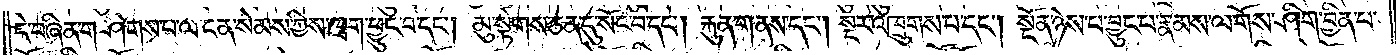དེ་བཞིན་གཤེགས་པ་ལ་ངན་སེམས་ཀྱིས་ཁྲག་ཕྱུང་བ་དང༌། མུ་སྟེགས་ཅན་དུ་སོང་བ་དང༌། རྐུན་གནས་དང༌། སྔར་འཁྲུགས་པ་དང༌། སྔོན་ཉེས་པ་བྱུང་བ་རྣམས་ལ་གོས་ཤིག་བྱིན་པ་
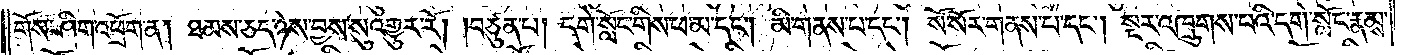གོས་ཤིག་འཕྲོག་ན། ཐམས་ཅད་ཉེས་བྱས་སུ་འགྱུར་རོ། །བཙུན་པ། དགེ་སློང་གིས་ཕ་མ་དང༌། མི་གནས་པ་དང༌། སོ་སོར་གནས་པ་དང༌། སྔར་འཁྲུགས་པའི་དགེ་སློང་རྣམས་
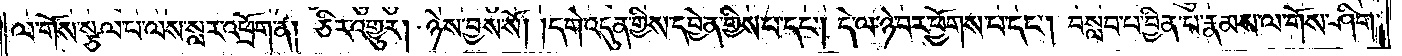ལ་གོས་སྩལ་པ་ལས་སླར་འཕྲོག་ན། ཅིར་འགྱུར། ཉེས་བྱས་སོ། །དགེ་འདུན་གྱིས་དབྱེན་གྱིས་པ་དང༌། དེ་ལ་ཉེ་བར་ཕྱོགས་པ་དང༌། བསླབ་པ་བྱིན་པ་རྣམས་ལ་གོས་ཤིག་
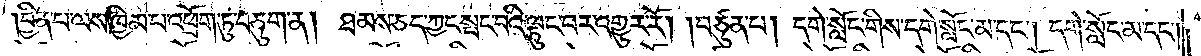བྱིན་པ་ལས་ཁྱིམ་པ་འཕྲོག་ཏུ་བཅུག་ན། ཐམས་ཅད་ཀྱང་སྤང་བའི་ལྟུང་བར་འགྱུར་རོ། །བཙུན་པ། དགེ་སློང་གིས་དགེ་སློང་མ་དང༌། དགེ་སློང་མ་དང༌།
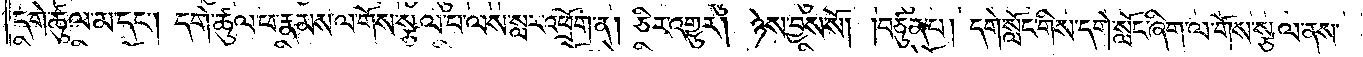དགེ་ཚུལ་མ་དང༌། དགེ་ཚུལ་ཕ་རྣམས་ལ་གོས་སྩལ་པ་ལས་སླར་འཕྲོག་ན། ཅིར་འགྱུར། ཉེས་བྱས་སོ། །བཙུན་པ། དགེ་སློང་གིས་དགེ་སློང་ཞིག་ལ་གོས་སྩལ་ནས་
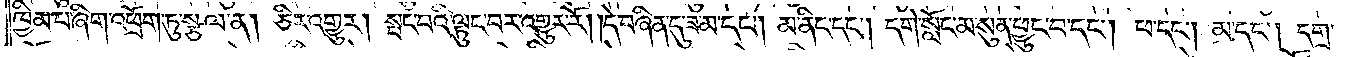ཁྱིམ་པ་ཞིག་འཕྲོག་ཏུ་སྩལ་ན། ཅིར་འགྱུར། སྤང་བའི་ལྟུང་བར་འགྱུར་རོ། །དེ་བཞིན་དུ་ཟ་མ་དང༌། མ་ནིང་དང༌། དགེ་སློང་མ་སུན་ཕྱུང་བ་དང༌། ཕ་དང༌། མ་དང༌། དགྲ་
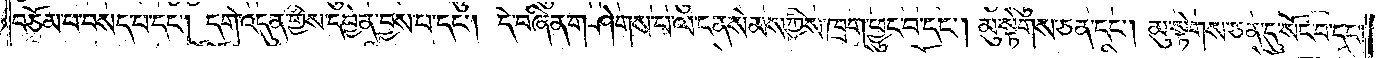བཅོམ་པ་བསད་པ་དང༌། དགེ་འདུན་གྱིས་དབྱེན་བྱས་པ་དང༌། དེ་བཞིན་གཤེགས་པ་ལ་ངན་སེམས་ཀྱིས་ཁྲག་ཕྱུང་བ་དང༌། མུ་སྟེགས་ཅན་དང༌། མུ་སྟེགས་ཅན་དུ་སོང་བ་དང༌།
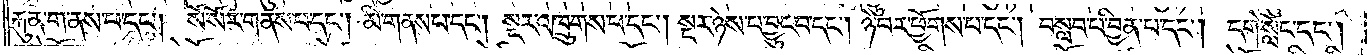རྐུན་གནས་པ་དང༌། སོ་སོར་གནས་པ་དང༌། མི་གནས་པ་དང༌། སྔར་འཁྲུགས་པ་དང༌། སྔར་ཉེས་པ་བྱུང་བ་དང༌། ཉེ་བར་ཕྱོགས་པ་དང༌། བསླབ་པ་བྱིན་པ་དང༌། དགེ་སློང་དང༌།
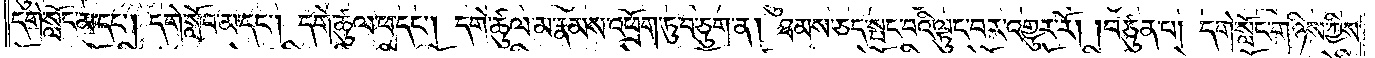དགེ་སློང་མ་དང༌། དགེ་སློབ་མ་དང༌། དགེ་ཚུལ་ཕ་དང༌། དགེ་ཚུལ་མ་རྣམས་འཕྲོག་ཏུ་བཅུག་ན། ཐམས་ཅད་སྤང་བའི་ལྟུང་བར་འགྱུར་རོ། །བཙུན་པ། དགེ་སློང་གཉིས་ཀྱིས་
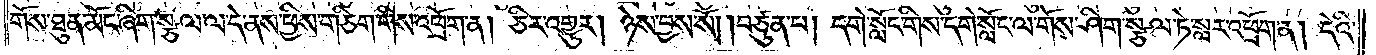གོས་ཐུན་མོང་ཞིག་སྩལ་ལ་དེ་ནས་ཕྱིས་གཅིག་གིས་འཕྲོག་ན། ཅིར་འགྱུར། ཉེས་བྱས་སོ། །བཙུན་པ། དགེ་སློང་གིས་དགེ་སློང་ལ་གོས་ཤིག་སྩལ་ཏེ་སླར་འཕྲོག་ན། དེའི་
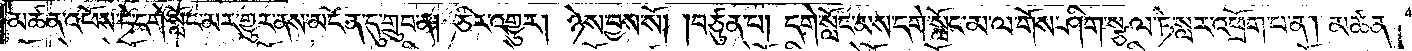མཚན་འཕོས་ཏེ་དགེ་སློང་མར་གྱུར་ནས་མངོན་དུ་གྲུབ་ན། ཅིར་འགྱུར། ཉེས་བྱས་སོ། །བཙུན་པ། དགེ་སློང་མས་དགེ་སློང་མ་ལ་གོས་ཤིག་སྩལ་ཏེ་སླར་འཕྲོག་པ་ན། མཚན་
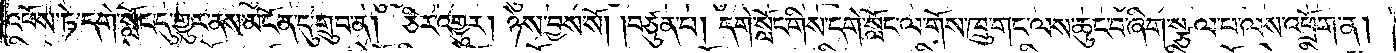འཕོས་ཏེ་དགེ་སློང་དུ་གྱུར་ནས་མངོན་དུ་གྲུབ་ན། ཅིར་འགྱུར། ཉེས་བྱས་སོ། །བཙུན་པ། དགེ་སློང་གིས་དགེ་སློང་ལ་གོས་ཁྲུ་གང་ལས་ཆུང་བ་ཞིག་སྩལ་པ་ལས་འཕྲོག་ན།
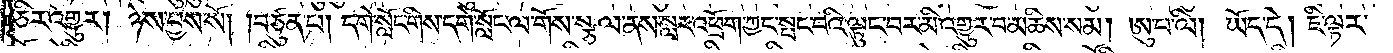ཅིར་འགྱུར། ཉེས་བྱས་སོ། །བཙུན་པ། དགེ་སློང་གིས་དགེ་སློང་ལ་གོས་སྩལ་ནས་སླར་འཕྲོག་ཀྱང་སྤང་བའི་ལྟུང་བར་མི་འགྱུར་བ་མཆིས་སམ། ཨུ་པ་ལི། ཡོད་དེ། ཇི་ལྟར་
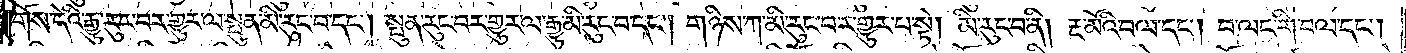གོས་དེའི་རྒྱུ་རུང་བར་གྱུར་ལ་སྤུན་མི་རུང་བ་དང༌། སྤུན་རུང་བར་གྱུར་ལ་རྒྱུ་མི་རུང་བ་དང༌། གཉིས་ཀ་མི་རུང་བར་གྱུར་པ་སྟེ། མི་རུང་བ་ནི། རྔ་མོའི་བལ་དང༌། བ་ལང་གི་བལ་དང༌།
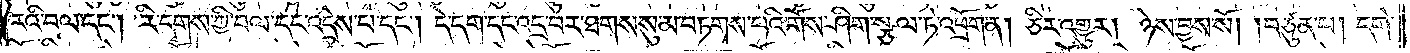རའི་བལ་དང༌། རི་དྭགས་ཀྱི་བལ་དང་འདྲེས་པ་དང༌། དེ་དག་དང་འདྲ་བར་ཐགས་སུ་མ་བཏགས་པའི་གོས་ཤིག་སྩལ་ཏེ་འཕྲོག་ན། ཅིར་འགྱུར། ཉེས་བྱས་སོ། །བཙུན་པ། དགེ་
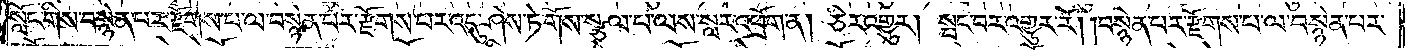སློང་གིས་བསྙེན་པར་རྫོགས་པ་ལ་བསྙེན་པར་རྫོགས་པར་འདུ་ཤེས་ཏེ་གོས་སྩལ་པ་ལས་སླར་འཕྲོག་ན། ཅིར་འགྱུར། སྤང་བར་འགྱུར་རོ། །བསྙེན་པར་རྫོགས་པ་ལ་བསྙེན་པར་
